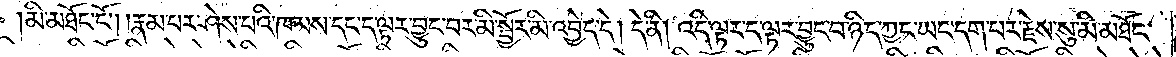མི་མཐོང་ངོ༌། །རྣམ་པར་ཤེས་པའི་ཁམས་དང་ད་ལྟར་བྱུང་བར་མི་སྦྱོར་མི་འབྱེད་དེ། དེ་ནི། འདི་ལྟར་ད་ལྟར་བྱུང་བ་ཉིད་ཀྱང་ཡང་དག་པར་རྗེས་སུ་མི་མཐོང་
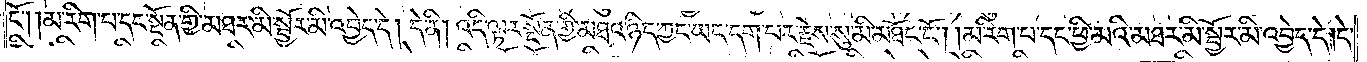ངོ༌། །མ་རིག་པ་དང་སྔོན་གྱི་མཐར་མི་སྦྱོར་མི་འབྱེད་དེ། དེ་ནི། འདི་ལྟར་སྔོན་གྱི་མཐའ་ཉིད་ཀྱང་ཡང་དག་པར་རྗེས་སུ་མི་མཐོང་ངོ༌། །མ་རིག་པ་དང་ཕྱི་མའི་མཐར་མི་སྦྱོར་མི་འབྱེད་དེ། དེ་
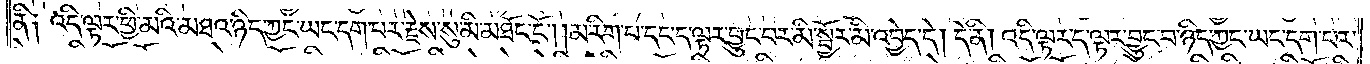ནི༑ འདི་ལྟར་ཕྱི་མའི་མཐའ་ཉིད་ཀྱང་ཡང་དག་པར་རྗེས་སུ་མི་མཐོང་ངོ༌། །མ་རིག་པ་དང་ད་ལྟར་བྱུང་བར་མི་སྦྱོར་མི་འབྱེད་དེ། དེ་ནི། འདི་ལྟར་ད་ལྟར་བྱུང་བ་ཉིད་ཀྱང་ཡང་དག་པར་
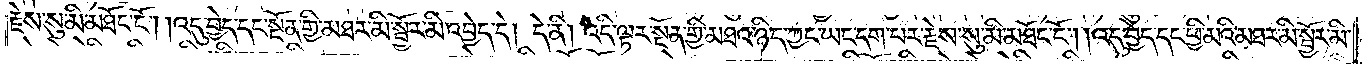རྗེས་སུ་མི་མཐོང་ངོ༌། །འདུ་བྱེད་དང་སྔོན་གྱི་མཐར་མི་སྦྱོར་མི་འབྱེད་དེ། དེ་ནི། འདི་ལྟར་སྔོན་གྱི་མཐའ་ཉིད་ཀྱང་ཡང་དག་པར་རྗེས་སུ་མི་མཐོང་ངོ༌། །འདུ་བྱེད་དང་ཕྱི་མའི་མཐར་མི་སྦྱོར་མི་
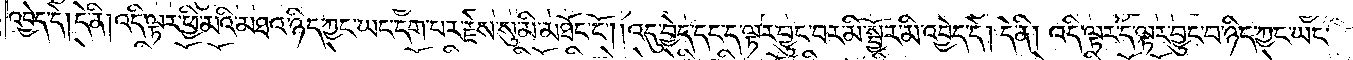འབྱེད་དེ། དེ་ནི། འདི་ལྟར་ཕྱི་མའི་མཐའ་ཉིད་ཀྱང་ཡང་དག་པར་རྗེས་སུ་མི་མཐོང་ངོ༌། །འདུ་བྱེད་དང་ད་ལྟར་བྱུང་བར་མི་སྦྱོར་མི་འབྱེད་དེ། དེ་ནི། འདི་ལྟར་ད་ལྟར་བྱུང་བ་ཉིད་ཀྱང་ཡང་
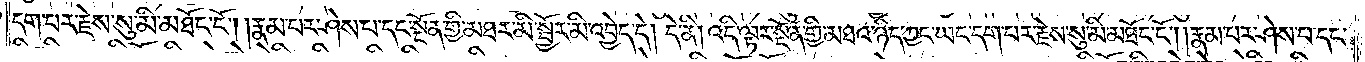དག་པར་རྗེས་སུ་མི་མཐོང་ངོ༌། །རྣམ་པར་ཤེས་པ་དང་སྔོན་གྱི་མཐར་མི་སྦྱོར་མི་འབྱེད་དེ། དེ་ནི། འདི་ལྟར་སྔོན་གྱི་མཐའ་ཉིད་ཀྱང་ཡང་དག་པར་རྗེས་སུ་མི་མཐོང་ངོ༌། །རྣམ་པར་ཤེས་པ་དང་
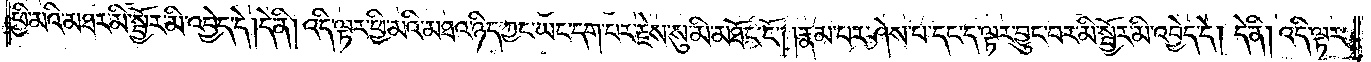ཕྱི་མའི་མཐར་མི་སྦྱོར་མི་འབྱེད་དེ། དེ་ནི། འདི་ལྟར་ཕྱི་མའི་མཐའ་ཉིད་ཀྱང་ཡང་དག་པར་རྗེས་སུ་མི་མཐོང་ངོ༌། །རྣམ་པར་ཤེས་པ་དང་ད་ལྟར་བྱུང་བར་མི་སྦྱོར་མི་འབྱེད་དེ། དེ་ནི། འདི་ལྟར་
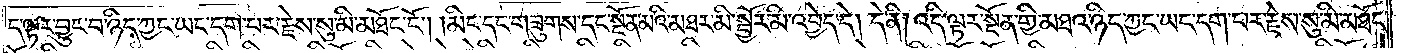ད་ལྟར་བྱུང་བ་ཉིད་ཀྱང་ཡང་དག་པར་རྗེས་སུ་མི་མཐོང་ངོ༌། །མིང་དང་གཟུགས་དང་སྔོན་མའི་མཐར་མི་སྦྱོར་མི་འབྱེད་དེ། དེ་ནི། འདི་ལྟར་སྔོན་གྱི་མཐའ་ཉིད་ཀྱང་ཡང་དག་པར་རྗེས་སུ་མི་མཐོང་
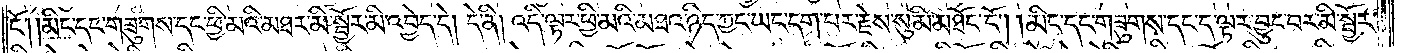ངོ༌། །མིང་དང་གཟུགས་དང་ཕྱི་མའི་མཐར་མི་སྦྱོར་མི་འབྱེད་དེ། དེ་ནི། འདི་ལྟར་ཕྱི་མའི་མཐའ་ཉིད་ཀྱང་ཡང་དག་པར་རྗེས་སུ་མི་མཐོང་ངོ༌། །མིང་དང་གཟུགས་དང་ད་ལྟར་བྱུང་བར་མི་སྦྱོར་
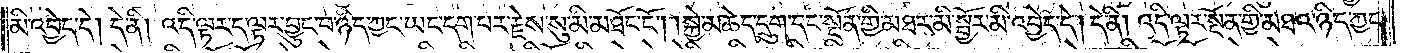མི་འབྱེད་དེ། དེ་ནི། འདི་ལྟར་ད་ལྟར་བྱུང་བ་ཉིད་ཀྱང་ཡང་དག་པར་རྗེས་སུ་མི་མཐོང་ངོ༌། །སྐྱེ་མཆེད་དྲུག་དང་སྔོན་གྱི་མཐར་མི་སྦྱོར་མི་འབྱེད་དེ། དེ་ནི། འདི་ལྟར་སྔོན་གྱི་མཐའ་ཉིད་ཀྱང་
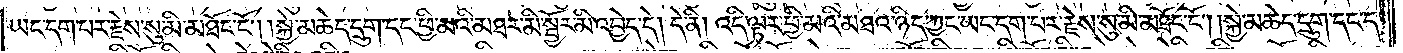ཡང་དག་པར་རྗེས་སུ་མི་མཐོང་ངོ༌། །སྐྱེ་མཆེད་དྲུག་དང་ཕྱི་མའི་མཐར་མི་སྦྱོར་མི་འབྱེད་དེ། དེ་ནི། འདི་ལྟར་ཕྱི་མའི་མཐའ་ཉིད་ཀྱང་ཡང་དག་པར་རྗེས་སུ་མི་མཐོང་ངོ༌། །སྐྱེ་མཆེད་དྲུག་དང་ད་
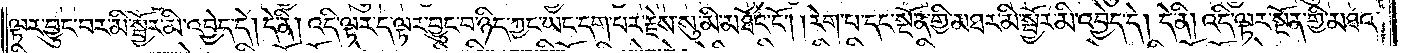ལྟར་བྱུང་བར་མི་སྦྱོར་མི་འབྱེད་དེ། དེ་ནི། འདི་ལྟར་ད་ལྟར་བྱུང་བ་ཉིད་ཀྱང་ཡང་དག་པར་རྗེས་སུ་མི་མཐོང་ངོ༌། །རེག་པ་དང་སྔོན་གྱི་མཐར་མི་སྦྱོར་མི་འབྱེད་དེ། དེ་ནི། འདི་ལྟར་སྔོན་གྱི་མཐའ་
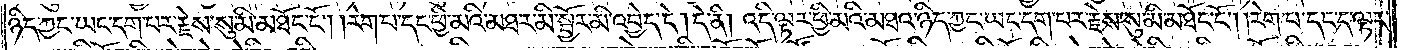ཉིད་ཀྱང་ཡང་དག་པར་རྗེས་སུ་མི་མཐོང་ངོ༌། །རེག་པ་དང་ཕྱི་མའི་མཐར་མི་སྦྱོར་མི་འབྱེད་དེ། དེ་ནི། འདི་ལྟར་ཕྱི་མའི་མཐའ་ཉིད་ཀྱང་ཡང་དག་པར་རྗེས་སུ་མི་མཐོང་ངོ༌། །རེག་པ་དང་ད་ལྟར་
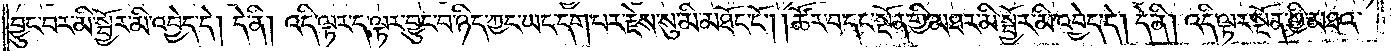བྱུང་བར་མི་སྦྱོར་མི་འབྱེད་དེ། དེ་ནི། འདི་ལྟར་ད་ལྟར་བྱུང་བ་ཉིད་ཀྱང་ཡང་དག་པར་རྗེས་སུ་མི་མཐོང་ངོ༌། །ཚོར་བ་དང་སྔོན་གྱི་མཐར་མི་སྦྱོར་མི་འབྱེད་དེ། དེ་ནི། འདི་ལྟར་སྔོན་གྱི་མཐའ་
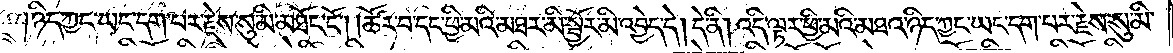ཉིད་ཀྱང་ཡང་དག་པར་རྗེས་སུ་མི་མཐོང་ངོ༌། །ཚོར་བ་དང་ཕྱི་མའི་མཐར་མི་སྦྱོར་མི་འབྱེད་དེ། དེ་ནི། འདི་ལྟར་ཕྱི་མའི་མཐའ་ཉིད་ཀྱང་ཡང་དག་པར་རྗེས་སུ་མི་
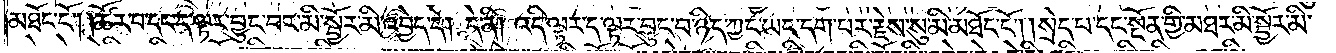མཐོང་ངོ༌། །ཚོར་བ་དང་ད་ལྟར་བྱུང་བར་མི་སྦྱོར་མི་འབྱེད་དེ། དེ་ནི། འདི་ལྟར་ད་ལྟར་བྱུང་བ་ཉིད་ཀྱང་ཡང་དག་པར་རྗེས་སུ་མི་མཐོང་ངོ༌། །སྲེད་པ་དང་སྔོན་གྱི་མཐར་མི་སྦྱོར་མི་
